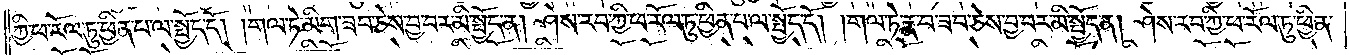ཀྱི་ཕ་རོལ་ཏུ་ཕྱིན་པ་ལ་སྤྱོད་དོ། །གལ་ཏེ་མིག་ཟབ་ཅེས་བྱ་བར་མི་སྤྱོད་ན། ཤེས་རབ་ཀྱི་ཕ་རོལ་ཏུ་ཕྱིན་པ་ལ་སྤྱོད་དོ། །གལ་ཏེ་རྣ་བ་ཟབ་ཅེས་བྱ་བར་མི་སྤྱོད་ན། ཤེས་རབ་ཀྱི་ཕ་རོལ་ཏུ་ཕྱིན་
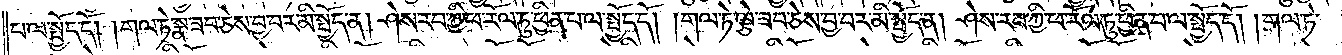པ་ལ་སྤྱོད་དོ། །གལ་ཏེ་སྣ་ཟབ་ཅེས་བྱ་བར་མི་སྤྱོད་ན། ཤེས་རབ་ཀྱི་ཕ་རོལ་ཏུ་ཕྱིན་པ་ལ་སྤྱོད་དོ། །གལ་ཏེ་ལྕེ་ཟབ་ཅེས་བྱ་བར་མི་སྤྱོད་ན། ཤེས་རབ་ཀྱི་ཕ་རོལ་ཏུ་ཕྱིན་པ་ལ་སྤྱོད་དོ། །གལ་ཏེ་
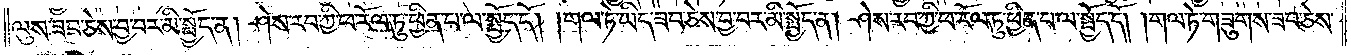ལུས་ཟབ་ཅེས་བྱ་བར་མི་སྤྱོད་ན། ཤེས་རབ་ཀྱི་ཕ་རོལ་ཏུ་ཕྱིན་པ་ལ་སྤྱོད་དོ། །གལ་ཏེ་ཡིད་ཟབ་ཅེས་བྱ་བར་མི་སྤྱོད་ན། ཤེས་རབ་ཀྱི་ཕ་རོལ་ཏུ་ཕྱིན་པ་ལ་སྤྱོད་དོ། །གལ་ཏེ་གཟུགས་ཟབ་ཅེས་
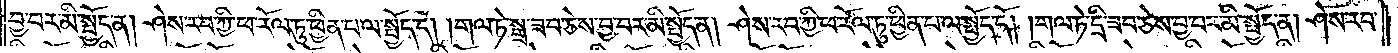བྱ་བར་མི་སྤྱོད་ན། ཤེས་རབ་ཀྱི་ཕ་རོལ་ཏུ་ཕྱིན་པ་ལ་སྤྱོད་དོ། །གལ་ཏེ་སྒྲ་ཟབ་ཅེས་བྱ་བར་མི་སྤྱོད་ན། ཤེས་རབ་ཀྱི་ཕ་རོལ་ཏུ་ཕྱིན་པ་ལ་སྤྱོད་དོ། །གལ་ཏེ་དྲི་ཟབ་ཅེས་བྱ་བར་མི་སྤྱོད་ན། ཤེས་རབ་
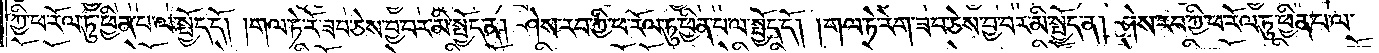ཀྱི་ཕ་རོལ་ཏུ་ཕྱིན་པ་ལ་སྤྱོད་དོ། །གལ་ཏེ་རོ་ཟབ་ཅེས་བྱ་བར་མི་སྤྱོད་ན། ཤེས་རབ་ཀྱི་ཕ་རོལ་ཏུ་ཕྱིན་པ་ལ་སྤྱོད་དོ། །གལ་ཏེ་རེག་ཟབ་ཅེས་བྱ་བར་མི་སྤྱོད་ན། ཤེས་རབ་ཀྱི་ཕ་རོལ་ཏུ་ཕྱིན་པ་ལ་
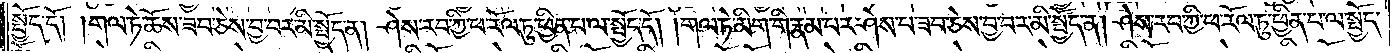སྤྱོད་དོ། །གལ་ཏེ་ཆོས་ཟབ་ཅེས་བྱ་བར་མི་སྤྱོད་ན། ཤེས་རབ་ཀྱི་ཕ་རོལ་ཏུ་ཕྱིན་པ་ལ་སྤྱོད་དོ། །གལ་ཏེ་མིག་གི་རྣམ་པར་ཤེས་པ་ཟབ་ཅེས་བྱ་བར་མི་སྤྱོད་ན། ཤེས་རབ་ཀྱི་ཕ་རོལ་ཏུ་ཕྱིན་པ་ལ་སྤྱོད་
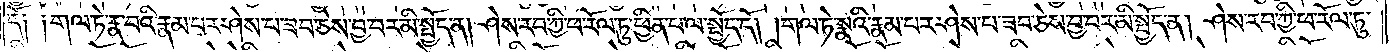དོ༑ ༑གལ་ཏེ་རྣ་བའི་རྣམ་པར་ཤེས་པ་ཟབ་ཅེས་བྱ་བར་མི་སྤྱོད་ན། ཤེས་རབ་ཀྱི་ཕ་རོལ་ཏུ་ཕྱིན་པ་ལ་སྤྱོད་དོ། །གལ་ཏེ་སྣའི་རྣམ་པར་ཤེས་པ་ཟབ་ཅེས་བྱ་བར་མི་སྤྱོད་ན། ཤེས་རབ་ཀྱི་ཕ་རོལ་ཏུ་
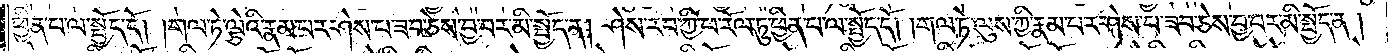ཕྱིན་པ་ལ་སྤྱོད་དོ། །གལ་ཏེ་ལྕེའི་རྣམ་པར་ཤེས་པ་ཟབ་ཅེས་བྱ་བར་མི་སྤྱོད་ན། ཤེས་རབ་ཀྱི་ཕ་རོལ་ཏུ་ཕྱིན་པ་ལ་སྤྱོད་དོ། །གལ་ཏེ་ལུས་ཀྱི་རྣམ་པར་ཤེས་པ་ཟབ་ཅེས་བྱ་བར་མི་སྤྱོད་ན།
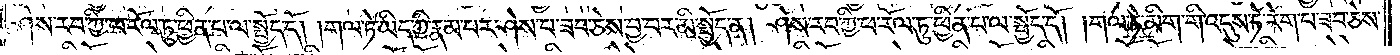ཤེས་རབ་ཀྱི་ཕ་རོལ་ཏུ་ཕྱིན་པ་ལ་སྤྱོད་དོ། །གལ་ཏེ་ཡིད་ཀྱི་རྣམ་པར་ཤེས་པ་ཟབ་ཅེས་བྱ་བར་མི་སྤྱོད་ན། ཤེས་རབ་ཀྱི་ཕ་རོལ་ཏུ་ཕྱིན་པ་ལ་སྤྱོད་དོ། །གལ་ཏེ་མིག་གི་འདུས་ཏེ་རེག་པ་ཟབ་ཅེས་
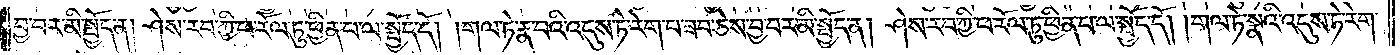བྱ་བར་མི་སྤྱོད་ན། ཤེས་རབ་ཀྱི་ཕ་རོལ་ཏུ་ཕྱིན་པ་ལ་སྤྱོད་དོ། །གལ་ཏེ་རྣ་བའི་འདུས་ཏེ་རེག་པ་ཟབ་ཅེས་བྱ་བར་མི་སྤྱོད་ན། ཤེས་རབ་ཀྱི་ཕ་རོལ་ཏུ་ཕྱིན་པ་ལ་སྤྱོད་དོ། །གལ་ཏེ་སྣའི་འདུས་ཏེ་རེག་
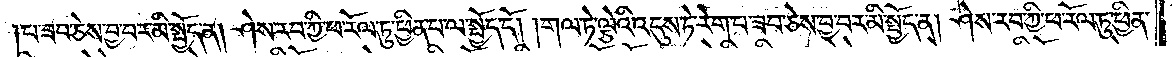པ་ཟབ་ཅེས་བྱ་བར་མི་སྤྱོད་ན། ཤེས་རབ་ཀྱི་ཕ་རོལ་ཏུ་ཕྱིན་པ་ལ་སྤྱོད་དོ། །གལ་ཏེ་ལྕེའི་འདུས་ཏེ་རེག་པ་ཟབ་ཅེས་བྱ་བར་མི་སྤྱོད་ན། ཤེས་རབ་ཀྱི་ཕ་རོལ་ཏུ་ཕྱིན་
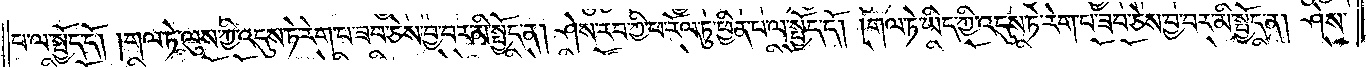པ་ལ་སྤྱོད་དོ། །གལ་ཏེ་ལུས་ཀྱི་འདུས་ཏེ་རེག་པ་ཟབ་ཅེས་བྱ་བར་མི་སྤྱོད་ན། ཤེས་རབ་ཀྱི་ཕ་རོལ་ཏུ་ཕྱིན་པ་ལ་སྤྱོད་དོ། །གལ་ཏེ་ཡིད་ཀྱི་འདུས་ཏེ་རེག་པ་ཟབ་ཅེས་བྱ་བར་མི་སྤྱོད་ན། ཤེས་
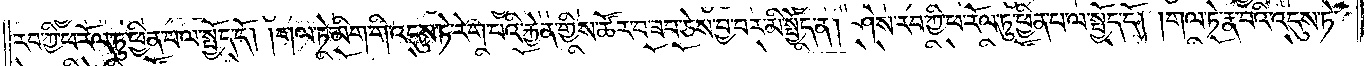རབ་ཀྱི་ཕ་རོལ་ཏུ་ཕྱིན་པ་ལ་སྤྱོད་དོ། །གལ་ཏེ་མིག་གི་འདུས་ཏེ་རེག་པའི་རྐྱེན་གྱིས་ཚོར་བ་ཟབ་ཅེས་བྱ་བར་མི་སྤྱོད་ན། ཤེས་རབ་ཀྱི་ཕ་རོལ་ཏུ་ཕྱིན་པ་ལ་སྤྱོད་དོ། །གལ་ཏེ་རྣ་བའི་འདུས་ཏེ་
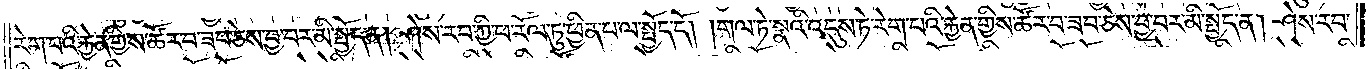རེག་པའི་རྐྱེན་གྱིས་ཚོར་བ་ཟབ་ཅེས་བྱ་བར་མི་སྤྱོད་ན། ཤེས་རབ་ཀྱི་ཕ་རོལ་ཏུ་ཕྱིན་པ་ལ་སྤྱོད་དོ། །གལ་ཏེ་སྣའི་འདུས་ཏེ་རེག་པའི་རྐྱེན་གྱིས་ཚོར་བ་ཟབ་ཅེས་བྱ་བར་མི་སྤྱོད་ན། ཤེས་རབ་
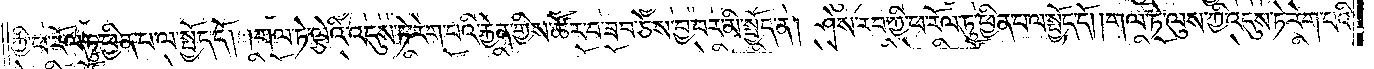ཀྱི་ཕ་རོལ་ཏུ་ཕྱིན་པ་ལ་སྤྱོད་དོ། །གལ་ཏེ་ལྕེའི་འདུས་ཏེ་རེག་པའི་རྐྱེན་གྱིས་ཚོར་བ་ཟབ་ཅེས་བྱ་བར་མི་སྤྱོད་ན། ཤེས་རབ་ཀྱི་ཕ་རོལ་ཏུ་ཕྱིན་པ་ལ་སྤྱོད་དོ། །གལ་ཏེ་ལུས་ཀྱི་འདུས་ཏེ་རེག་པའི་
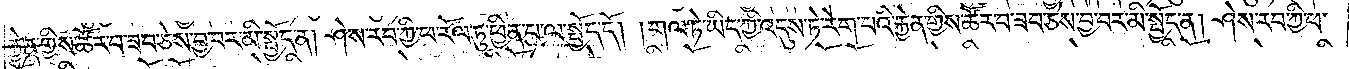རྐྱེན་གྱིས་ཚོར་བ་ཟབ་ཅེས་བྱ་བར་མི་སྤྱོད་ན། ཤེས་རབ་ཀྱི་ཕ་རོལ་ཏུ་ཕྱིན་པ་ལ་སྤྱོད་དོ། །གལ་ཏེ་ཡིད་ཀྱི་འདུས་ཏེ་རེག་པའི་རྐྱེན་གྱིས་ཚོར་བ་ཟབ་ཅེས་བྱ་བར་མི་སྤྱོད་ན། ཤེས་རབ་ཀྱི་ཕ་
